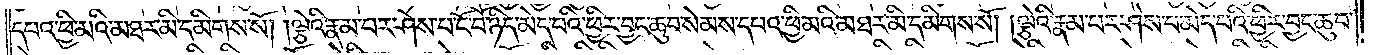དཔའ་ཕྱི་མའི་མཐར་མི་དམིགས་སོ། །ལྕེའི་རྣམ་པར་ཤེས་པ་ངོ་བོ་ཉིད་མེད་པའི་ཕྱིར་བྱང་ཆུབ་སེམས་དཔའ་ཕྱི་མའི་མཐར་མི་དམིགས་སོ། །ལྕེའི་རྣམ་པར་ཤེས་པ་མེད་པའི་ཕྱིར་བྱང་ཆུབ་
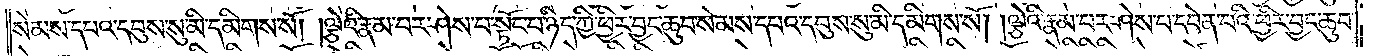སེམས་དཔའ་དབུས་སུ་མི་དམིགས་སོ། །ལྕེའི་རྣམ་པར་ཤེས་པ་སྟོང་པ་ཉིད་ཀྱི་ཕྱིར་བྱང་ཆུབ་སེམས་དཔའ་དབུས་སུ་མི་དམིགས་སོ། །ལྕེའི་རྣམ་པར་ཤེས་པ་དབེན་པའི་ཕྱིར་བྱང་ཆུབ་
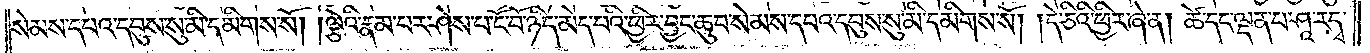སེམས་དཔའ་དབུས་སུ་མི་དམིགས་སོ། །ལྕེའི་རྣམ་པར་ཤེས་པ་ངོ་བོ་ཉིད་མེད་པའི་ཕྱིར་བྱང་ཆུབ་སེམས་དཔའ་དབུས་སུ་མི་དམིགས་སོ། །དེ་ཅིའི་ཕྱིར་ཞེ་ན། ཚེ་དང་ལྡན་པ་ཤཱ་རདྭ་
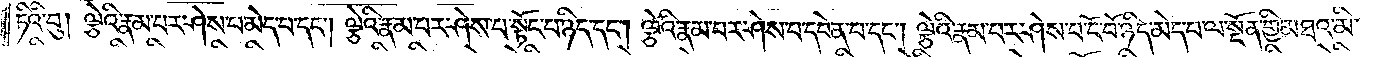ཏིའི་བུ། ལྕེའི་རྣམ་པར་ཤེས་པ་མེད་པ་དང༌། ལྕེའི་རྣམ་པར་ཤེས་པ་སྟོང་པ་ཉིད་དང༌། ལྕེའི་རྣམ་པར་ཤེས་པ་དབེན་པ་དང༌། ལྕེའི་རྣམ་པར་ཤེས་པ་ངོ་བོ་ཉིད་མེད་པ་ལ་སྔོན་གྱི་མཐའ་མི་
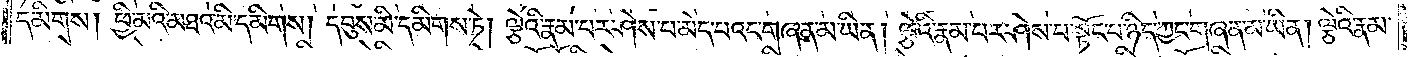དམིགས། ཕྱི་མའི་མཐའ་མི་དམིགས། དབུས་མི་དམིགས་ཏེ། ལྕེའི་རྣམ་པར་ཤེས་པ་མེད་པའང་གཞན་མ་ཡིན། ལྕེའི་རྣམ་པར་ཤེས་པ་སྟོང་པ་ཉིད་ཀྱང་གཞན་མ་ཡིན། ལྕེའི་རྣམ་
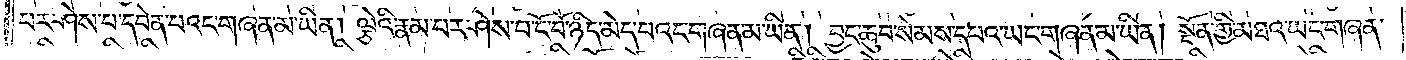པར་ཤེས་པ་དབེན་པའང་གཞན་མ་ཡིན། ལྕེའི་རྣམ་པར་ཤེས་པ་ངོ་བོ་ཉིད་མེད་པའང་གཞན་མ་ཡིན། བྱང་ཆུབ་སེམས་དཔའ་ཡང་གཞན་མ་ཡིན། སྔོན་གྱི་མཐའ་ཡང་གཞན་
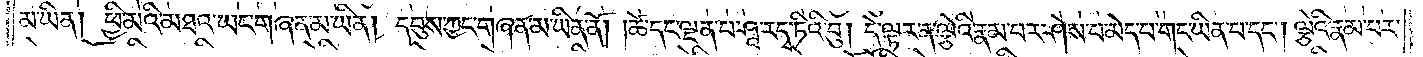མ་ཡིན། ཕྱི་མའི་མཐའ་ཡང་གཞན་མ་ཡིན། དབུས་ཀྱང་གཞན་མ་ཡིན་ནོ། །ཚེ་དང་ལྡན་པ་ཤཱ་རདྭ་ཏིའི་བུ། དེ་ལྟར་ན་ལྕེའི་རྣམ་པར་ཤེས་པ་མེད་པ་གང་ཡིན་པ་དང༌། ལྕེའི་རྣམ་པར་
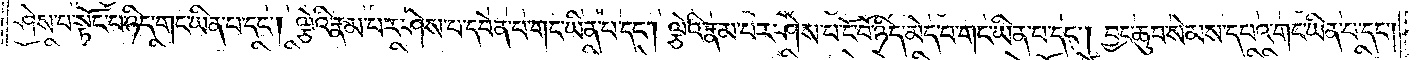ཤེས་པ་སྟོང་པ་ཉིད་གང་ཡིན་པ་དང༌། ལྕེའི་རྣམ་པར་ཤེས་པ་དབེན་པ་གང་ཡིན་པ་དང༌། ལྕེའི་རྣམ་པར་ཤེས་པ་ངོ་བོ་ཉིད་མེད་པ་གང་ཡིན་པ་དང༌། བྱང་ཆུབ་སེམས་དཔའ་གང་ཡིན་པ་དང༌།
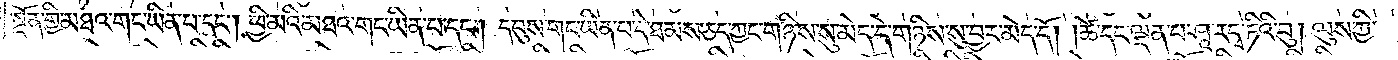སྔོན་གྱི་མཐའ་གང་ཡིན་པ་དང༌། ཕྱི་མའི་མཐའ་གང་ཡིན་པ་དང༌། དབུས་གང་ཡིན་པ་དེ་ཐམས་ཅད་ཀྱང་གཉིས་སུ་མེད་དེ་གཉིས་སུ་བྱར་མེད་དོ། །ཚེ་དང་ལྡན་པ་ཤཱ་རདྭ་ཏིའི་བུ། ལུས་ཀྱི་
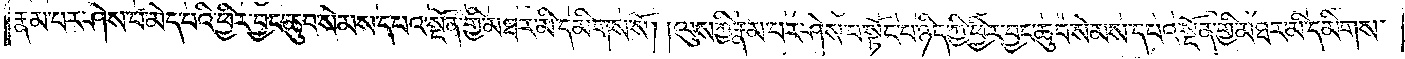རྣམ་པར་ཤེས་པ་མེད་པའི་ཕྱིར་བྱང་ཆུབ་སེམས་དཔའ་སྔོན་གྱི་མཐར་མི་དམིགས་སོ། །ལུས་ཀྱི་རྣམ་པར་ཤེས་པ་སྟོང་པ་ཉིད་ཀྱི་ཕྱིར་བྱང་ཆུབ་སེམས་དཔའ་སྔོན་གྱི་མཐར་མི་དམིགས་
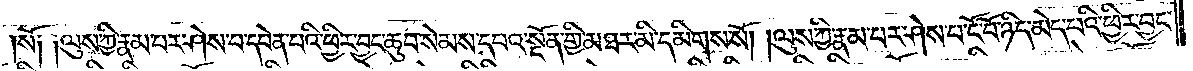སོ༑ ༑ལུས་ཀྱི་རྣམ་པར་ཤེས་པ་དབེན་པའི་ཕྱིར་བྱང་ཆུབ་སེམས་དཔའ་སྔོན་གྱི་མཐར་མི་དམིགས་སོ། །ལུས་ཀྱི་རྣམ་པར་ཤེས་པ་ངོ་བོ་ཉིད་མེད་པའི་ཕྱིར་བྱང་
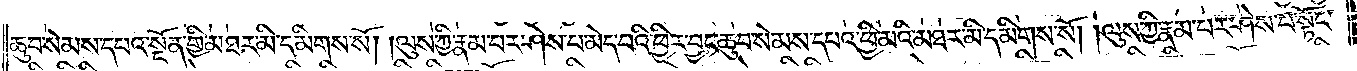ཆུབ་སེམས་དཔའ་སྔོན་གྱི་མཐར་མི་དམིགས་སོ། །ལུས་ཀྱི་རྣམ་པར་ཤེས་པ་མེད་པའི་ཕྱིར་བྱང་ཆུབ་སེམས་དཔའ་ཕྱི་མའི་མཐར་མི་དམིགས་སོ། །ལུས་ཀྱི་རྣམ་པར་ཤེས་པ་སྟོང་
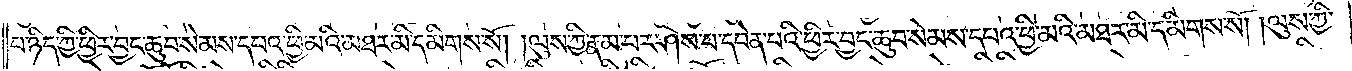པ་ཉིད་ཀྱི་ཕྱིར་བྱང་ཆུབ་སེམས་དཔའ་ཕྱི་མའི་མཐར་མི་དམིགས་སོ། །ལུས་ཀྱི་རྣམ་པར་ཤེས་པ་དབེན་པའི་ཕྱིར་བྱང་ཆུབ་སེམས་དཔའ་ཕྱི་མའི་མཐར་མི་དམིགས་སོ། །ལུས་ཀྱི་
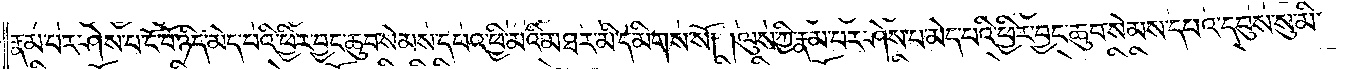རྣམ་པར་ཤེས་པ་ངོ་བོ་ཉིད་མེད་པའི་ཕྱིར་བྱང་ཆུབ་སེམས་དཔའ་ཕྱི་མའི་མཐར་མི་དམིགས་སོ། །ལུས་ཀྱི་རྣམ་པར་ཤེས་པ་མེད་པའི་ཕྱིར་བྱང་ཆུབ་སེམས་དཔའ་དབུས་སུ་མི་
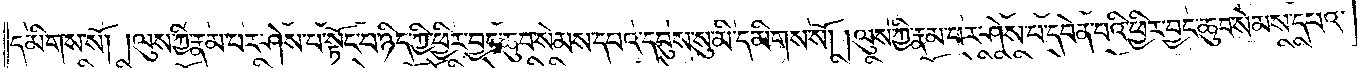དམིགས་སོ། །ལུས་ཀྱི་རྣམ་པར་ཤེས་པ་སྟོང་པ་ཉིད་ཀྱི་ཕྱིར་བྱང་ཆུབ་སེམས་དཔའ་དབུས་སུ་མི་དམིགས་སོ། །ལུས་ཀྱི་རྣམ་པར་ཤེས་པ་དབེན་པའི་ཕྱིར་བྱང་ཆུབ་སེམས་དཔའ་
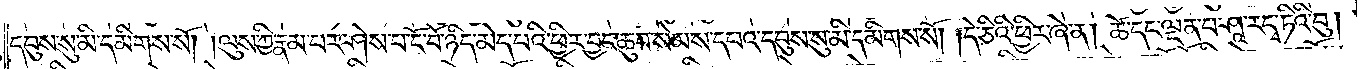དབུས་སུ་མི་དམིགས་སོ། །ལུས་ཀྱི་རྣམ་པར་ཤེས་པ་ངོ་བོ་ཉིད་མེད་པའི་ཕྱིར་བྱང་ཆུབ་སེམས་དཔའ་དབུས་སུ་མི་དམིགས་སོ། །དེ་ཅིའི་ཕྱིར་ཞེ་ན། ཚེ་དང་ལྡན་པ་ཤཱ་རདྭ་ཏིའི་བུ།
